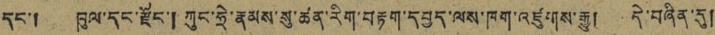དང་། ཁུལ་དང་རྫོང་། ཀུང་ཧྲེ་རྣམས་སུ་ཚན་རིག་བརྟག་དཔྱད་ལས་ཁག་འཛུགས་རྒྱུ། དེ་བཞིན་དུ།
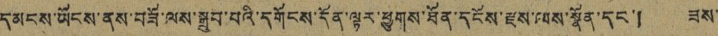དམངས་ཡོངས་ནས་བཟོ་ལས་སྒྲུབ་པའི་དགོངས་དོན་ལྟར་ཕྱུགས་ཐོན་དངོས་རྫས་ལས་སྣོན་དང་། ཟས་
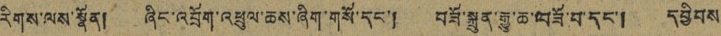རིགས་ལས་སྣོན། ཞིང་འབྲོག་འཕྲུལ་ཆས་ཞིག་གསོ་དང་། བཟོ་སྐྲུན་རྒྱུ་ཆ་བཟོ་བ་དང་། དབྱིབས
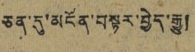ཅན་དུ་མངོན་བསྟར་བྱེད་རྒྱུ།
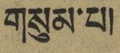གསུམ་པ།
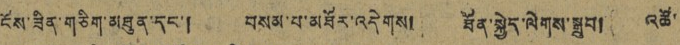ངོས་ཟིན་གཅིག་མཐུན་དང་། བསམ་པ་མཐོར་འདེགས། ཐོན་སྐྱེད་ལེགས་སྒྲུབ། འཚོ་
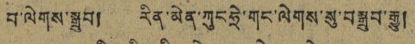བ་ལེགས་སྒྲུབ། རིན་མེན་ཀུང ཧྲེ་གང་ལེགས་སུ་བསྒྲུབ་རྒྱུ།
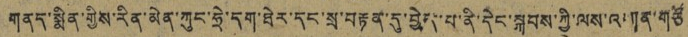གནད་སྨིན་གྱིས་རིན་མེན་ཀུང་ཧྲེ་དག་ཐེར་དང་སྲ་བརྟན་དུ་བྱེད་པ་ནི་དེང་སྐབས་ཀྱི་ལས་འགན་གཙོ
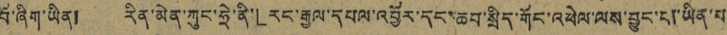བོ་ཞིག་ཡིན། རིན་མེན་ཀུང་ཧྲེ་ནི་「རང་རྒྱལ་དཔལ་འབྱོར་དང་ཆབ་སྲིད་གོང་འཕེལ་ལས་བྱུང་བ་ཡིན་པ
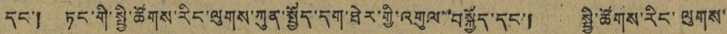དང་། ཏང་གི་སྤྱི་ཚོགས་རིང་ལུགས་ཀུན་སྤྱོད་དག་ཐེར་གྱི་འགུལ་བསྐྱོད་དང་། སྤྱི་ཚོགས་རིང་ལུགས་
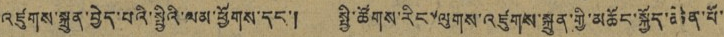འཛུགས་སྐྲུན་བྱེད་པའི་སྤྱིའི་ལམ་ཕྱོགས་དང་། སྤྱི་ཚོགས་རིང་ལུགས་འཛུགས་སྐྲུན་གྱི་མཆོང་སྐྱོད་ཆེན་པོ་
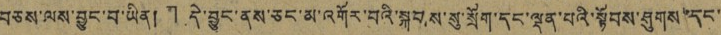བཅས་ལས་བྱུང་བ་ཡིན།」 དེ་བྱུང་ནས་ཅང་མ་འགོར་བའི་སྐབས་སུ་སྲོག་དང་ལྡན་པའི་སྟོབས་ཤུགས་དང་
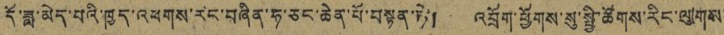དོ་ཟླ་མེད་པའི་ཁྱད་འཕགས་རང་བཞིན་ཧ་ཅང་ཆེན་པོ་བསྟན་ཏེ། འབྲོག་ཕྱོགས་སུ་སྤྱི་ཚོགས་རིང་ལུགས་
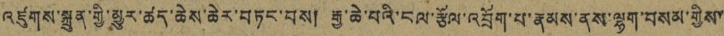འཛུགས་སྐྲུན་གྱི་མྱུར་ཚད་ཆེས་ཆེར་བཏང་བས། རྒྱ་ཆེ་བའི་ངལ་རྩོལ་འབྲོག་པ་རྣམས་ནས་ལྷག་བསམ་གྱིས་
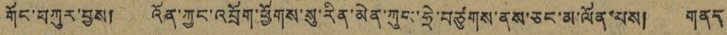གོང་བཀུར་བྱས། འོན་ཀྱང་འབྲོག་ཕྱོགས་སུ་རིན་མེན་ཀུང་ཧྲེ་བཙུགས་ནས་ཅང་མ་ལོན་པས། གནད
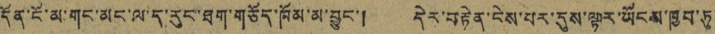དོན་ངོ་མ་གང་མང་ལ་ད་རུང་ཐག་གཅོད་ཁོམ་མ་བྱུང་། དེར་བརྟེན་ངེས་པར་དུས་ལྟར་ཡོངས་ཁྱབ་ཏུ་
